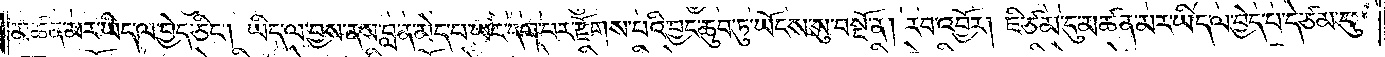མཚན་མར་ཡིད་ལ་བྱེད་ཅིང༌། ཡིད་ལ་བྱས་ནས་བླ་ན་མེད་པ་ཡང་དག་པར་རྫོགས་པའི་བྱང་ཆུབ་ཏུ་ཡོངས་སུ་བསྔོ་ན། རབ་འབྱོར། ཇི་ཙམ་དུ་མཚན་མར་ཡིད་ལ་བྱེད་པ་དེ་ཙམ་དུ་
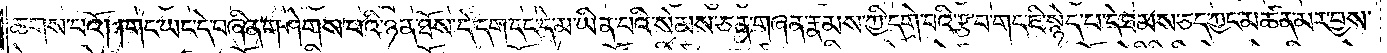ཆགས་པའོ། །གང་ཡང་དེ་བཞིན་གཤེགས་པའི་ཉན་ཐོས་དེ་དག་དང་དེ་མ་ཡིན་པའི་སེམས་ཅན་གཞན་རྣམས་ཀྱི་དགེ་བའི་རྩ་བ་གང་ཇི་སྙེད་པ་དེ་ཐམས་ཅད་ཀྱང་མཚན་མར་བྱས་
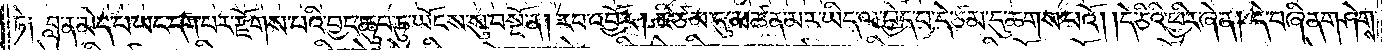ཏེ༑ བླ་ན་མེད་པ་ཡང་དག་པར་རྫོགས་པའི་བྱང་ཆུབ་ཏུ་ཡོངས་སུ་བསྔོ་ན། རབ་འབྱོར། ཇི་ཙམ་དུ་མཚན་མར་ཡིད་ལ་བྱེད་པ་དེ་ཙམ་དུ་ཆགས་པའོ། །དེ་ཅིའི་ཕྱིར་ཞེ་ན། དེ་བཞིན་གཤེགས་
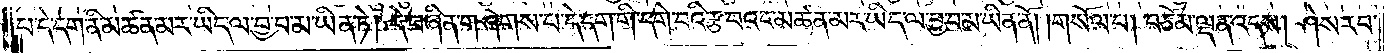པ་དེ་དག་ནི་མཚན་མར་ཡིད་ལ་བྱ་བ་མ་ཡིན་ཏེ། དེ་བཞིན་གཤེགས་པ་དེ་དག་གི་དགེ་བའི་རྩ་བའང་མཚན་མར་ཡིད་ལ་བྱ་བ་མ་ཡིན་ནོ། །གསོལ་པ། བཅོམ་ལྡན་འདས། ཤེས་རབ་
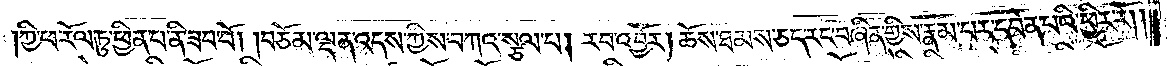ཀྱི་ཕ་རོལ་ཏུ་ཕྱིན་པ་ནི་ཟབ་བོ། །བཅོམ་ལྡན་འདས་ཀྱིས་བཀའ་སྩལ་པ། རབ་འབྱོར། ཆོས་ཐམས་ཅད་རང་བཞིན་གྱིས་རྣམ་པར་དབེན་པའི་ཕྱིར་རོ། །
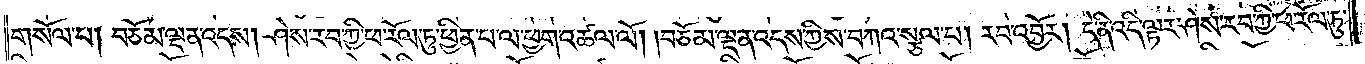གསོལ་པ། བཅོམ་ལྡན་འདས། ཤེས་རབ་ཀྱི་ཕ་རོལ་ཏུ་ཕྱིན་པ་ལ་ཕྱག་འཚལ་ལོ། །བཅོམ་ལྡན་འདས་ཀྱིས་བཀའ་སྩལ་པ། རབ་འབྱོར། དེ་ནི་འདི་ལྟར་ཤེས་རབ་ཀྱི་ཕ་རོལ་ཏུ་
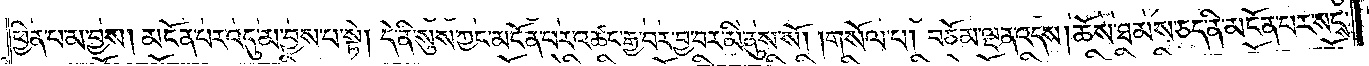ཕྱིན་པ་མ་བྱས། མངོན་པར་འདུ་མ་བྱས་པ་སྟེ། དེ་ནི་སུས་ཀྱང་མངོན་པར་འཚང་རྒྱ་བར་བྱ་བར་མི་ནུས་སོ། །གསོལ་པ། བཅོམ་ལྡན་འདས། ཆོས་ཐམས་ཅད་ནི་མངོན་པར་སངས་
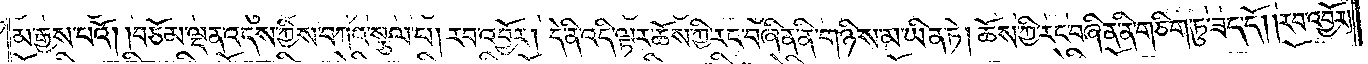མ་རྒྱས་པའོ། །བཅོམ་ལྡན་འདས་ཀྱིས་བཀའ་སྩལ་པ། རབ་འབྱོར། དེ་ནི་འདི་ལྟར་ཆོས་ཀྱི་རང་བཞིན་ནི་གཉིས་མ་ཡིན་ཏེ། ཆོས་ཀྱི་རང་བཞིན་ནི་གཅིག་ཏུ་ཟད་དོ། །རབ་འབྱོར།
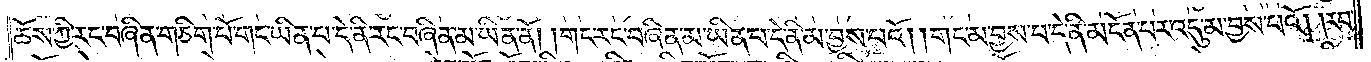ཆོས་ཀྱི་རང་བཞིན་གཅིག་པོ་གང་ཡིན་པ་དེ་ནི་རང་བཞིན་མ་ཡིན་ནོ། །གང་རང་བཞིན་མ་ཡིན་པ་དེ་ནི་མ་བྱས་པའོ། །གང་མ་བྱས་པ་དེ་ནི་མངོན་པར་འདུ་མ་བྱས་པའོ། །རབ་
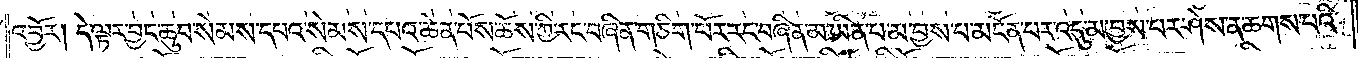འབྱོར། དེ་ལྟར་བྱང་ཆུབ་སེམས་དཔའ་སེམས་དཔའ་ཆེན་པོས་ཆོས་ཀྱི་རང་བཞིན་གཅིག་པོར་རང་བཞིན་མ་ཡིན་པ་མ་བྱས་པ་མངོན་པར་འདུ་མ་བྱས་པར་ཤེས་ན་ཆགས་པའི་
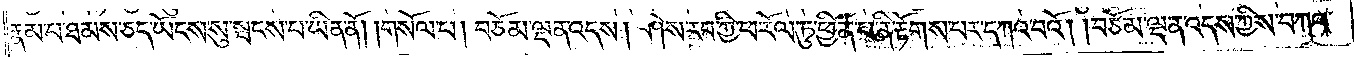རྣམ་པ་ཐམས་ཅད་ཡོངས་སུ་སྤངས་པ་ཡིན་ནོ། །གསོལ་པ། བཅོམ་ལྡན་འདས། ཤེས་རབ་ཀྱི་ཕ་རོལ་ཏུ་ཕྱིན་པ་ནི་རྟོགས་པར་དཀའ་བའོ། །བཅོམ་ལྡན་འདས་ཀྱིས་བཀའ་
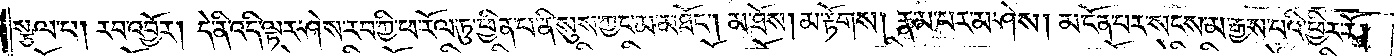སྩལ་པ། རབ་འབྱོར། དེ་ནི་འདི་ལྟར་ཤེས་རབ་ཀྱི་ཕ་རོལ་ཏུ་ཕྱིན་པ་ནི་སུས་ཀྱང་མ་མཐོང༌། མ་ཐོས། མ་རྟོགས། རྣམ་པར་མ་ཤེས། མངོན་པར་སངས་མ་རྒྱས་པའི་ཕྱིར་རོ། །
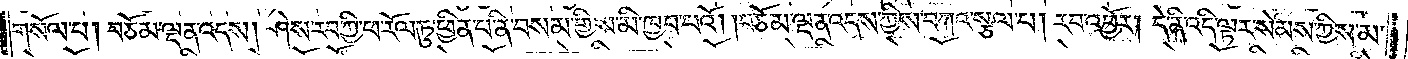གསོལ་པ། བཅོམ་ལྡན་འདས། ཤེས་རབ་ཀྱི་ཕ་རོལ་ཏུ་ཕྱིན་པ་ནི་བསམ་གྱིས་མི་ཁྱབ་པའོ། །བཅོམ་ལྡན་འདས་ཀྱིས་བཀའ་སྩལ་པ། རབ་འབྱོར། དེ་ནི་འདི་ལྟར་སེམས་ཀྱིས་མ་
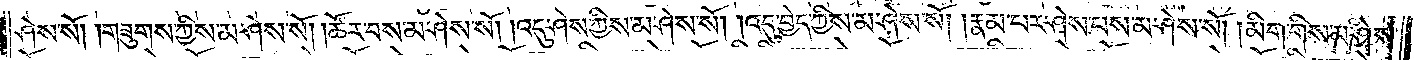ཤེས་སོ། །གཟུགས་ཀྱིས་མ་ཤེས་སོ། །ཚོར་བས་མ་ཤེས་སོ། །འདུ་ཤེས་ཀྱིས་མ་ཤེས་སོ། །འདུ་བྱེད་ཀྱིས་མ་ཤེས་སོ། །རྣམ་པར་ཤེས་པས་མ་ཤེས་སོ། །མིག་གིས་མ་ཤེས་
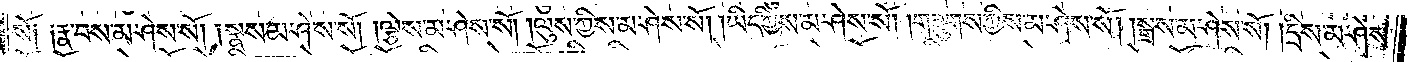སོ༑ ༑རྣ་བས་མ་ཤེས་སོ། །སྣས་མ་ཤེས་སོ། །ལྕེས་མ་ཤེས་སོ། །ལུས་ཀྱིས་མ་ཤེས་སོ། །ཡིད་ཀྱིས་མ་ཤེས་སོ། །གཟུགས་ཀྱིས་མ་ཤེས་སོ། །སྒྲས་མ་ཤེས་སོ། །དྲིས་མ་ཤེས་
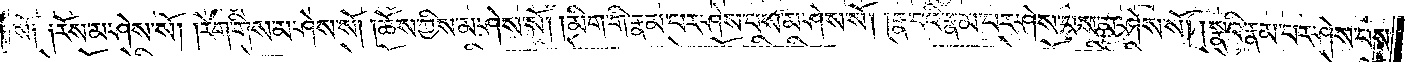སོ༑ ༑རོས་མ་ཤེས་སོ། །རེག་གིས་མ་ཤེས་སོ། །ཆོས་ཀྱིས་མ་ཤེས་སོ། །མིག་གི་རྣམ་པར་ཤེས་པས་མ་ཤེས་སོ། །རྣ་བའི་རྣམ་པར་ཤེས་པས་མ་ཤེས་སོ། །སྣའི་རྣམ་པར་ཤེས་པས་
